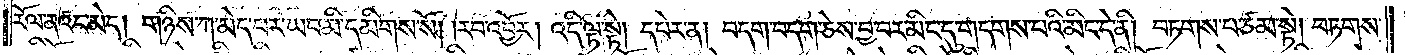རོལ་ནའང་མེད། གཉིས་ཀ་མེད་པར་ཡང་མི་དམིགས་སོ། །རབ་འབྱོར། འདི་ལྟ་སྟེ། དཔེར་ན། བདག་བདག་ཅེས་བྱ་བར་མིང་དུ་གདགས་པའི་མིང་དེ་ནི། བཏགས་པ་ཙམ་སྟེ། བཏགས་
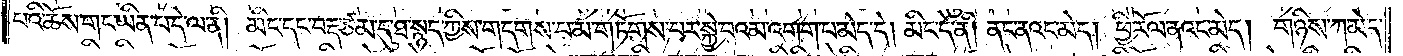པའི་ཆོས་གང་ཡིན་པ་དེ་ལ་ནི། མིང་དང་བརྡ་ཙམ་དུ་ཐ་སྙད་ཀྱིས་གདགས་པ་མ་གཏོགས་པར་སྐྱེ་བའམ་འགག་པ་མེད་དེ། མིང་དེ་ནི། ནང་ནའང་མེད། ཕྱི་རོལ་ནའང་མེད། གཉིས་ཀ་མེད་
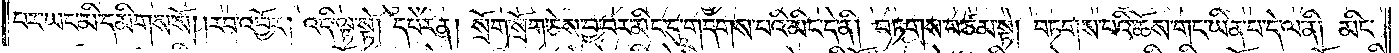པར་ཡང་མི་དམིགས་སོ། །རབ་འབྱོར། འདི་ལྟ་སྟེ། དཔེར་ན། སྲོག་སྲོག་ཅེས་བྱ་བར་མིང་དུ་གདགས་པའི་མིང་དེ་ནི། བཏགས་པ་ཙམ་སྟེ། བཏགས་པའི་ཆོས་གང་ཡིན་པ་དེ་ལ་ནི། མིང་
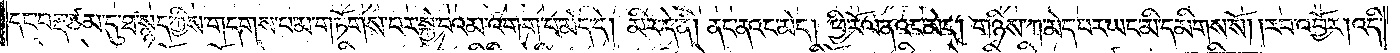དང་བརྡ་ཙམ་དུ་ཐ་སྙད་ཀྱིས་གདགས་པ་མ་གཏོགས་པར་སྐྱེ་བའམ་འགག་པ་མེད་དེ། མིང་དེ་ནི། ནང་ནའང་མེད། ཕྱི་རོལ་ནའང་མེད། གཉིས་ཀ་མེད་པར་ཡང་མི་དམིགས་སོ། །རབ་འབྱོར། འདི་
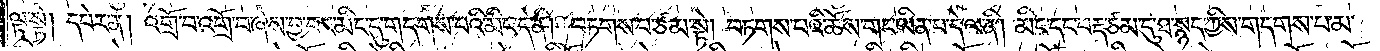ལྟ་སྟེ། དཔེར་ན། འགྲོ་བ་འགྲོ་བ་ཞེས་བྱ་བར་མིང་དུ་གདགས་པའི་མིང་དེ་ནི། བཏགས་པ་ཙམ་སྟེ། བཏགས་པའི་ཆོས་གང་ཡིན་པ་དེ་ལ་ནི། མིང་དང་བརྡ་ཙམ་དུ་ཐ་སྙད་ཀྱིས་གདགས་པ་མ་
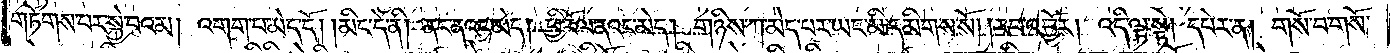གཏོགས་པར་སྐྱེ་བའམ། འགག་པ་མེད་དོ། །མིང་དེ་ནི། ནང་ནའང་མེད། ཕྱི་རོལ་ནའང་མེད། གཉིས་ཀ་མེད་པར་ཡང་མི་དམིགས་སོ། །རབ་འབྱོར། འདི་ལྟ་སྟེ། དཔེར་ན། གསོ་བ་གསོ་
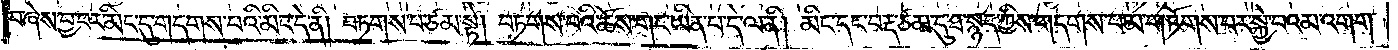བ་ཞེས་བྱ་བར་མིང་དུ་གདགས་པའི་མིང་དེ་ནི། བཏགས་པ་ཙམ་སྟེ། བཏགས་པའི་ཆོས་གང་ཡིན་པ་དེ་ལ་ནི། མིང་དང་བརྡ་ཙམ་དུ་ཐ་སྙད་ཀྱིས་གདགས་པ་མ་གཏོགས་པར་སྐྱེ་བའམ་འགག་
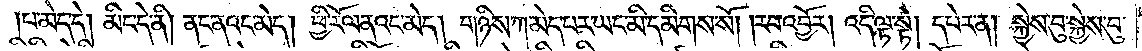པ་མེད་དེ། མིང་དེ་ནི། ནང་ནའང་མེད། ཕྱི་རོལ་ནའང་མེད། གཉིས་ཀ་མེད་པར་ཡང་མི་དམིགས་སོ། །རབ་འབྱོར། འདི་ལྟ་སྟེ། དཔེར་ན། སྐྱེས་བུ་སྐྱེས་བུ་
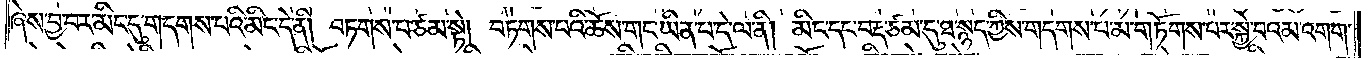ཞེས་བྱ་བར་མིང་དུ་གདགས་པའི་མིང་དེ་ནི། བཏགས་པ་ཙམ་སྟེ། བཏགས་པའི་ཆོས་གང་ཡིན་པ་དེ་ལ་ནི། མིང་དང་བརྡ་ཙམ་དུ་ཐ་སྙད་ཀྱིས་གདགས་པ་མ་གཏོགས་པར་སྐྱེ་བའམ་འགག་
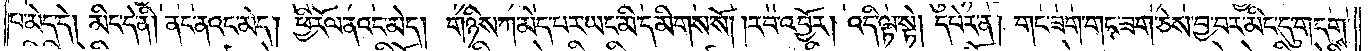པ་མེད་དེ། མིང་དེ་ནི། ནང་ནའང་མེད། ཕྱི་རོལ་ནའང་མེད། གཉིས་ཀ་མེད་པར་ཡང་མི་དམིགས་སོ། །རབ་འབྱོར། འདི་ལྟ་སྟེ། དཔེར་ན། གང་ཟག་གང་ཟག་ཅེས་བྱ་བར་མིང་དུ་གདགས་
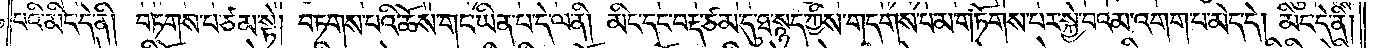པའི་མིང་དེ་ནི། བཏགས་པ་ཙམ་སྟེ། བཏགས་པའི་ཆོས་གང་ཡིན་པ་དེ་ལ་ནི། མིང་དང་བརྡ་ཙམ་དུ་ཐ་སྙད་ཀྱིས་གདགས་པ་མ་གཏོགས་པར་སྐྱེ་བའམ་འགག་པ་མེད་དེ། མིང་དེ་ནི།
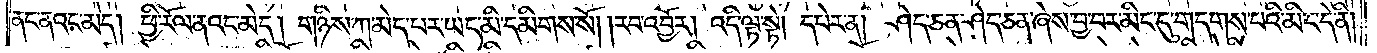ནང་ནའང་མེད། ཕྱི་རོལ་ནའང་མེད། གཉིས་ཀ་མེད་པར་ཡང་མི་དམིགས་སོ། །རབ་འབྱོར། འདི་ལྟ་སྟེ། དཔེར་ན། ཤེད་ཅན་ཤེད་ཅན་ཞེས་བྱ་བར་མིང་དུ་གདགས་པའི་མིང་དེ་ནི།
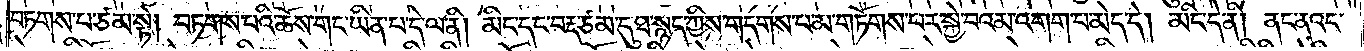བཏགས་པ་ཙམ་སྟེ། བཏགས་པའི་ཆོས་གང་ཡིན་པ་དེ་ལ་ནི། མིང་དང་བརྡ་ཙམ་དུ་ཐ་སྙད་ཀྱིས་གདགས་པ་མ་གཏོགས་པར་སྐྱེ་བའམ་འགག་པ་མེད་དེ། མིང་དེ་ནི། ནང་ནའང་
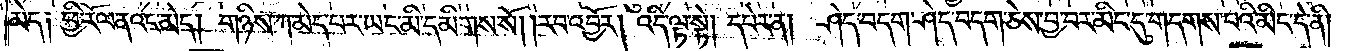མེད༑ ཕྱི་རོལ་ནའང་མེད། གཉིས་ཀ་མེད་པར་ཡང་མི་དམིགས་སོ། །རབ་འབྱོར། འདི་ལྟ་སྟེ། དཔེར་ན། ཤེད་བདག་ཤེད་བདག་ཅེས་བྱ་བར་མིང་དུ་གདགས་པའི་མིང་དེ་ནི།
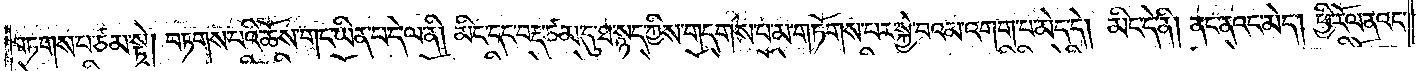བཏགས་པ་ཙམ་སྟེ། བཏགས་པའི་ཆོས་གང་ཡིན་པ་དེ་ལ་ནི། མིང་དང་བརྡ་ཙམ་དུ་ཐ་སྙད་ཀྱིས་གདགས་པ་མ་གཏོགས་པར་སྐྱེ་བའམ་འགག་པ་མེད་དེ། མིང་དེ་ནི། ནང་ནའང་མེད། ཕྱི་རོལ་ནའང་
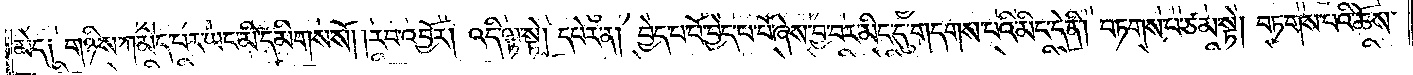མེད༑ གཉིས་ཀ་མེད་པར་ཡང་མི་དམིགས་སོ། །རབ་འབྱོར། འདི་ལྟ་སྟེ། དཔེར་ན། བྱེད་པ་པོ་བྱེད་པ་པོ་ཞེས་བྱ་བར་མིང་དུ་གདགས་པའི་མིང་དེ་ནི། བཏགས་པ་ཙམ་སྟེ། བཏགས་པའི་ཆོས་
